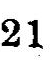21
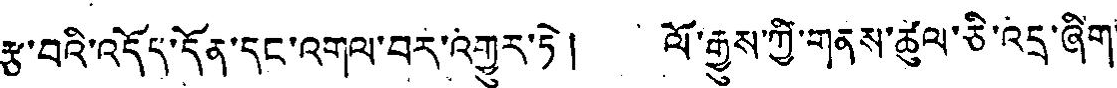རྩ་བའི་འདོད་དོན་དང་འགལ་བར་འགྱུར་ཏེ། ལོ་རྒྱུས་ཀྱི་གནས་ཚུལ་ཅི་འདྲ་ཞིག་
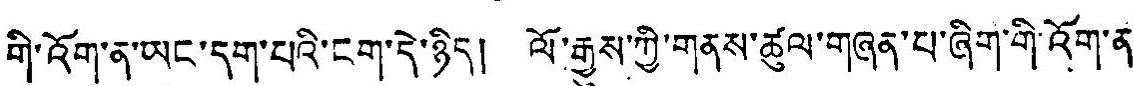གི་འོག་ན་ཡང་དག་པའི་ངག་དེ་ཉིད། ལོ་རྒྱུས་ཀྱི་གནས་ཚུལ་གཞན་པ་ཞིག་གི་འོག་ན
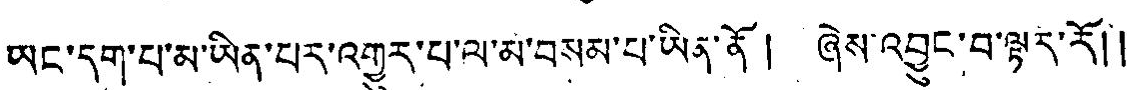ཡང་དག་པ་མ་ཡིན་པར་འགྱུར་པ་ལ་མ་བསམ་པ་ཡིན་ནོ ། ཞེས་འབྱུང་བ་ལྟར་རོ༎
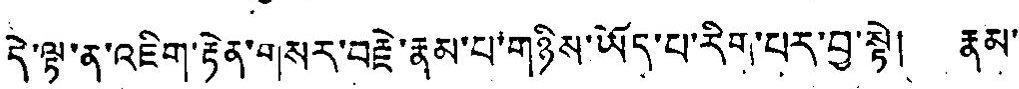དེ་ལྟ་ན་འཇིག་རྟེན་གསར་བརྗེ་རྣམ་པ་གཉིས་ཡོད་པ་རིག་པར་བྱ་སྟེ། རྣམ་
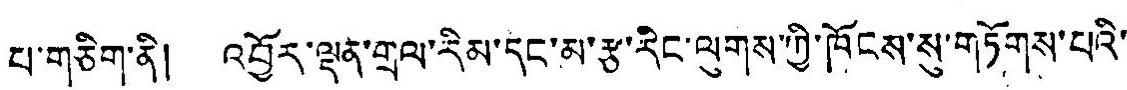པ་གཅིག་ནི། འབྱོར་ལྡན་གྲལ་རིམ་དང་མ་རྩ་རིང་ལུགས་ཀྱི་ཁོངས་སུ་གཏོགས་པའི་
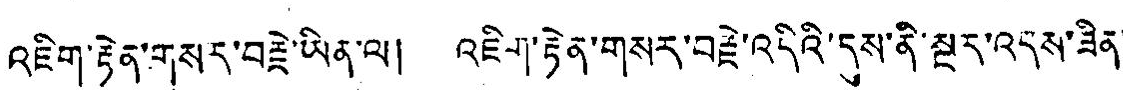འཇིག་རྟེན་གསར་བརྗེ་ཡིན་ལ། འཇིག་རྟེན་གསར་བརྗེ་འདིའི་དུས་ནི་སྔར་འདས་ཟིན་
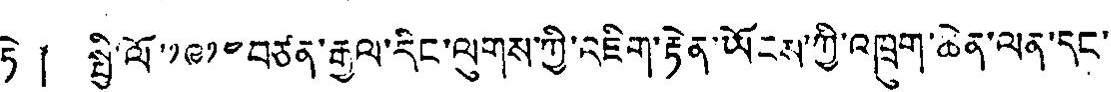ཏེ ༐ སྤྱི་ལོ་༡༩༡༤ བཙན་རྒྱལ་རིང་ལུགས་ཀྱི་འཇིག་རྟེན་ཡོངས་ཀྱི་འཁྲུག་ཆེན་ལན་དང་་
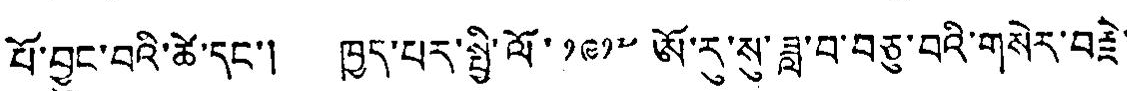པོ་བྱུང་བའི་ཚེ་དང་། ཁྱད་པར་སྤྱི་ལོ་ ༡༩༡༧ ཨོ་རུ་སུ་ཟླ་བ་བཅུ་བའི་གསེར་བརྗེ་
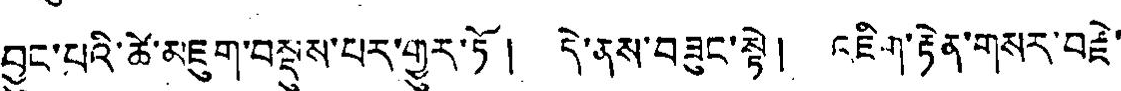བྱུང་པའི་ཚེ་མཇུག་བསྡུས་པར་གྱུར་ཏོ ། དེ་ནས་བཟུང་སྟེ། འཇིག་རྟེན་གསར་བརྗེ་
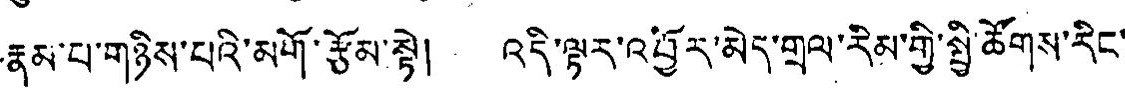རྣམ་པ་གཉིས་པའི་མགོ་རྩོམ་སྟེ། འདི་ལྟར་འབྱོར་མེད་གྲལ་རིམ་གྱི་སྤྱི་ཚོགས་རིང་
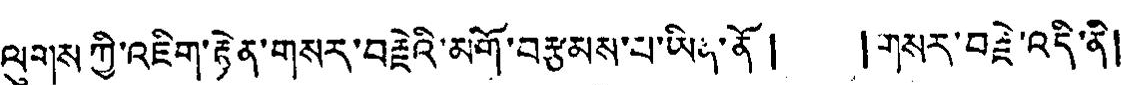ལུགས་ཀྱི་འཇིག་རྟེན་གསར་བརྗེའི་མགོ་བརྩམས་པ་ཡིན་ནོ། །གསར་བརྗེ་འདི་ནི།
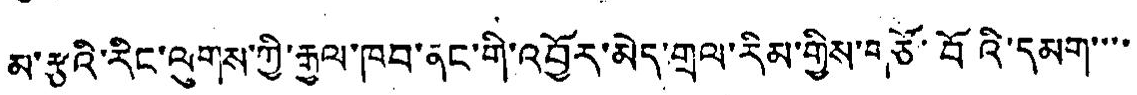མ་རྩའི་རིང་ལུགས་ཀྱི་རྒྱལ་ཁབ་ནང་གི་འབྱོར་མེད་གྲལ་རིམ་གྱིས་གཙོ་བོའི་དམག་་་་
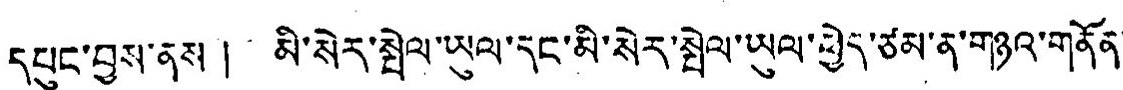དཔུང་བྱས་ནས ། མི་སེར་སྤེལ་ཡུལ་དང་མི་སེར་སྤེལ་ཡུལ་ཕྱེད་ཙམ་ན་གཉའ་གནོན་
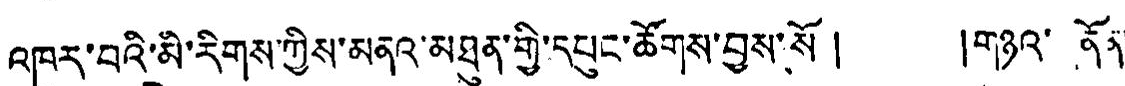མཁུར་བའི་མི་རིགས་ཀྱིས་མནའ་མཐུན་གྱི་དཔུང་ཚོགས་བྱས་སོ ། །གཉའ་ ནོན་
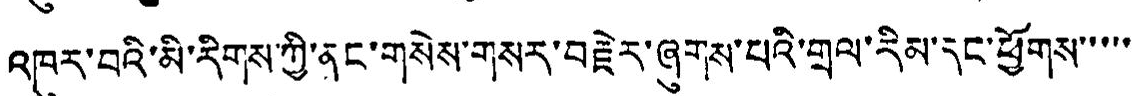འཁུར་བའི་མི་རིགས་ཀྱི་ནང་གསེས་གསར་བརྗེར་ཞུགས་པའི་གྲལ་རིམ་དང་ཕྱོགས་་་་་
